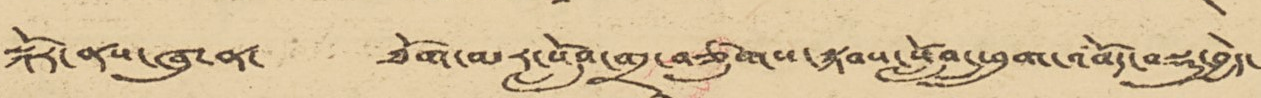སྐོར་ནས་ཞུ་ན་ ཐོག་མར་སློབ་གྲྭ་བཙུགས་སྐབས་སློབ་ཕྲུག་འབོད་བསྡུ་བྱེད་
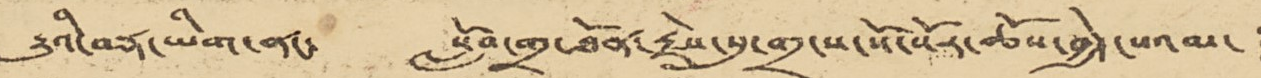རྒྱུའི་བརྡ་ཡིག་ནང་ སློབ་གྲ་ཐོན་རྗེས་སུ་གྲྭ་པ་སོ་སོར་ཆོས་བྱེད་པའམ་ །
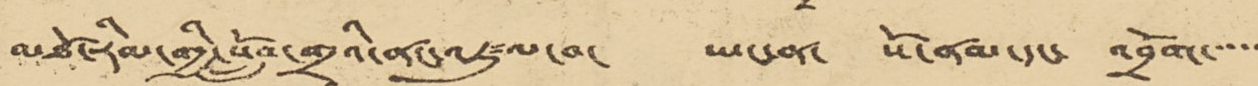མཐོ་རིམ་གྱི་སློབ་གྲྭའི་ནང་འཛུལ་བ་ ཡང་ན་ སོ་ནམ་དང་ འབྲོག་་་་་་
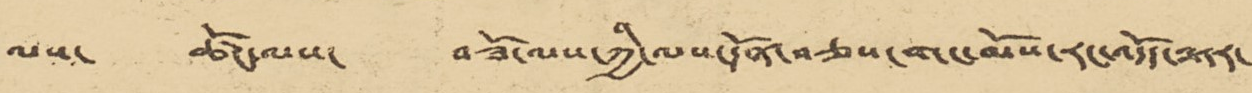ལས་ ཚོང་ལས་ བཟོ་ལས་ཀྱི་ལས་དོན་བཅས་གང་མོས་རང་འདོད་ལྟར་
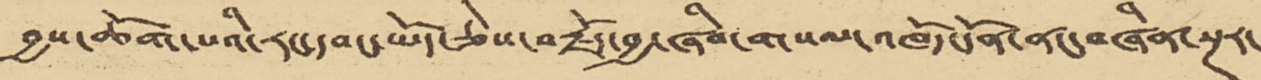བྱས་ཆོག་པའི་རང་དབང་ཡོད་ཅེས་བརྗོད་བྱ་ཞིབ་གསལ་འཁོ་དོན་ནང་བཞིན་སྔར་
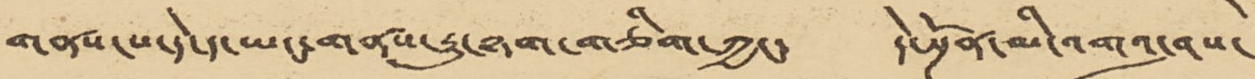གནས་པ་དེ་ད་ཡང་གནས་རྒྱུ་ཉག་གཅིག་ཀྱང་ དེ་སྔོན་མི་འགའ་ཤས་
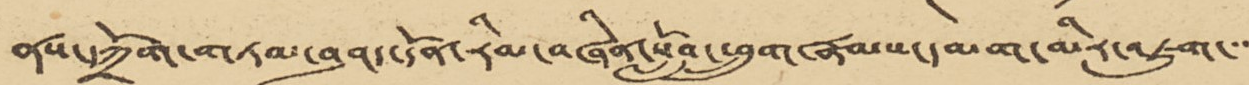ནས་དཀྲོག་གཏམ་བཤད་དོན་རིམ་བཞིན་སློབ་ཕྲུག་རྣམས་དམག་མིར་འཇུག་་་
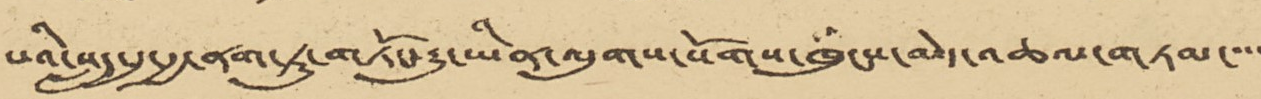པའི་སླད་དུ་རྒྱ་ནག་ཏུ་གཏོང་རྒྱུ་ཡིན་ལུགས་སོགས་ཁུངས་མེད་འཆལ་གཏམ་་་་
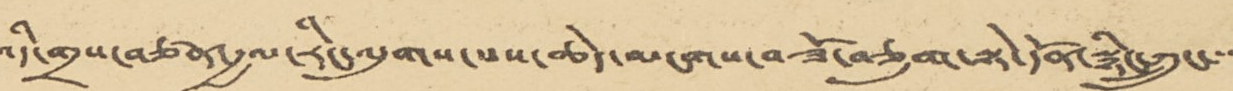འདི་གྲས་བཙན་རྒྱལ་རིང་ལུགས་པས་ཆེད་མངགས་བཟོ་བཅུག་སྟེ་དོན་སྙིང་ཀྲུང་་་་
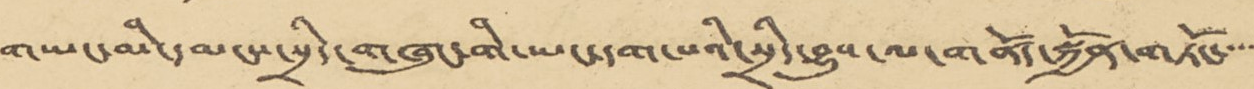གཡང་མི་དམངས་སྲིད་གཞུང་གི་ཡང་དག་པའི་སྲིད་བྱུས་ལ་གནོད་སྐྱོན་གཏོང་་་་
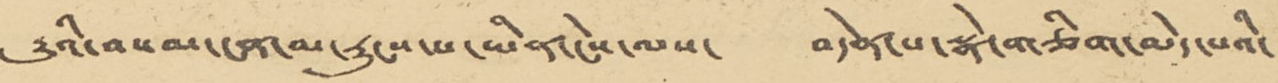རྒྱུའི་བསམ་ངན་མ་རུངས་པ་ཡིན་ངེས་ལས་ བདེན་པ་སྣེ་གཅིག་མེད་པའི་
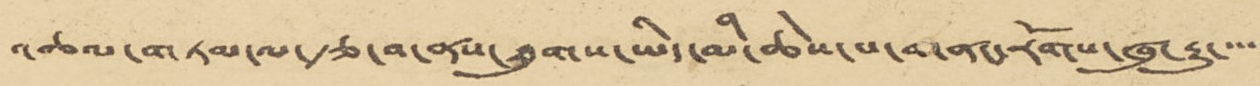འཆལ་གཏམ་ལ་རྩ་བ་ནས་ཐུགས་ཡིད་མི་ཆེས་པ་གནང་རོགས་ཞུ་རྒྱུ་་་་་
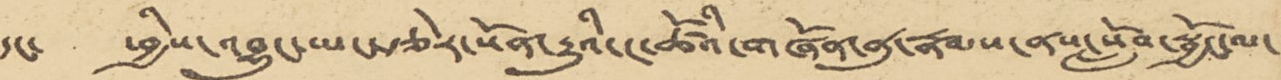དང་ ཕྱིས་འབྱུང་ཡང་རྩེར་སོན་རྒྱུའི་ང་ཚོའི་གཞོན་ནུ་རྣམས་ནས་སློབ་སྦྱོང་ལ་
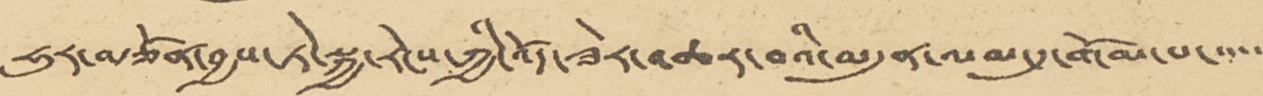ཧུར་བརྩོན་བྱས་ཏེ་སྐྱ་རེངས་ཀྱི་འོད་ཟེར་འཆར་བའི་མདུན་ལམ་དུ་གོམ་པ་་་་་
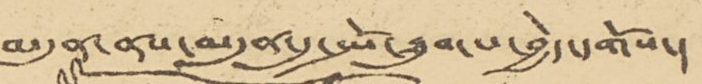མདུན་ནས་མདུན་དུ་སྤོ་ཐུགས་བྱེད་དགོས་།
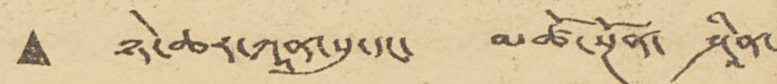• ཉེ་ཆར་ཀཱན་སུ་དང་ མཚོ་སྔོན་ ཤཱིན་
